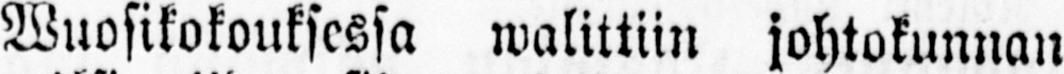Wuosikokouksessa walittiin johtokunnan
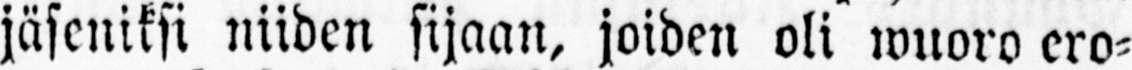jäseniksi niiden sijaan, joiden oli wuoro ero-
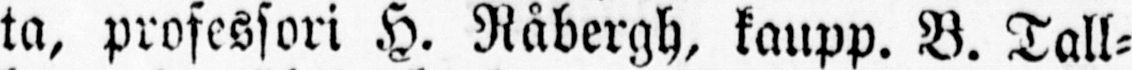ta, professori H. Råbergh, kaupp. B. Tall-
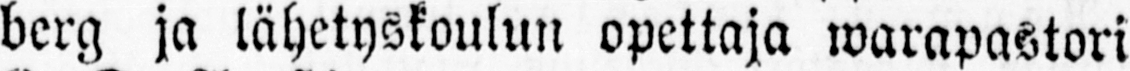berg ja lähetyskoulun opettaja warapastori
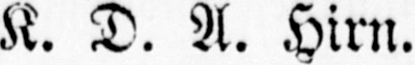K. D. A. Hirn.
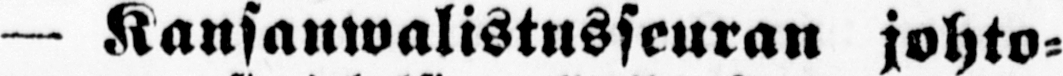— Kansanwalistusseuran johto-
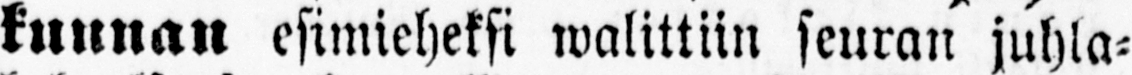kunnan esimieheksi walittiin seuran juhla-
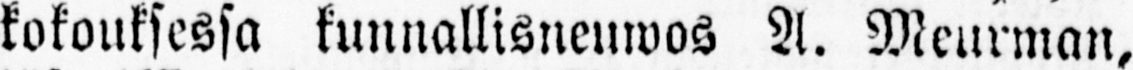kokouksessa kunnallisneuwos A. Meurman,
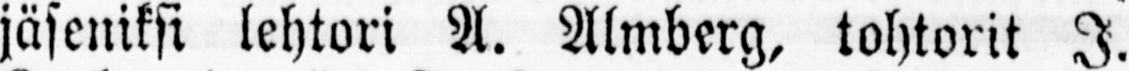jäseniksi lehtori A. Almberg, tohtorit J.
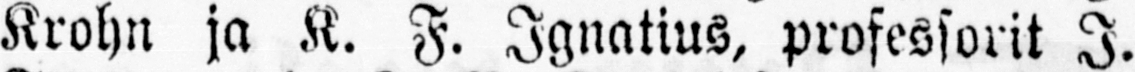Krohn ja K. F. Ignatius, professorit J.
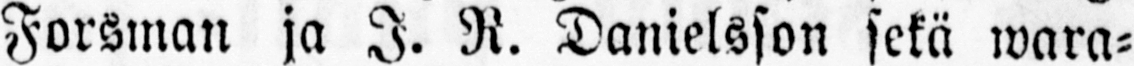Forsman ja J. R. Danielsson sekä wara-
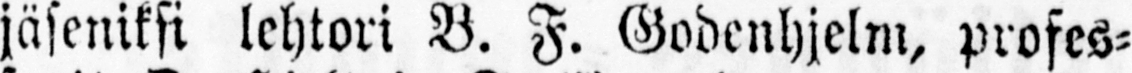jäseniksi lehtori B. F. Godenhjelm, profes-
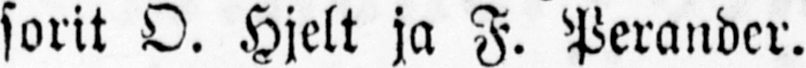sorit O. Hjelt ja F. Perander.
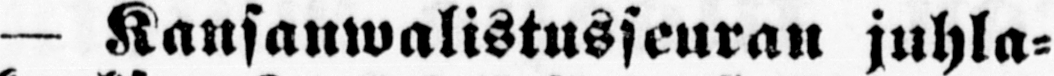— Kansanwalistusseuran juhla-
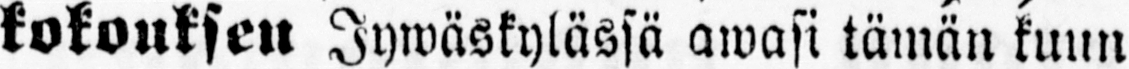kokouksen Jywäskylässä awasi tämän kuun
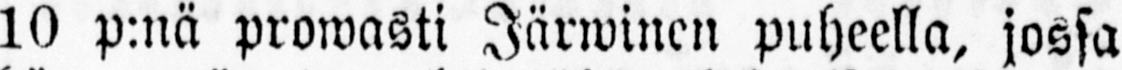10 p:nä prowasti Järwinen puheella, jossa
